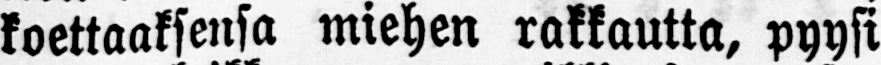koettaaksensa miehen rakkautta, pyysi
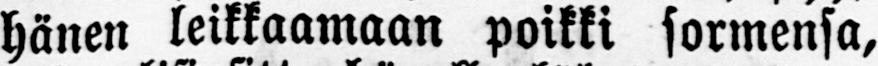hänen leikkaamaan poikki sormensa,
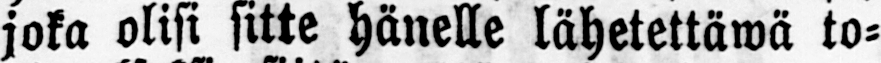joka olisi sitte hänelle lähetettäwä to-
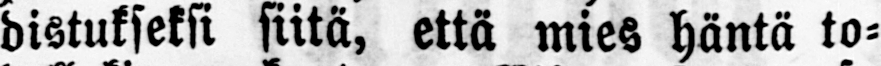distukseksi siitä, että mies häntä to-
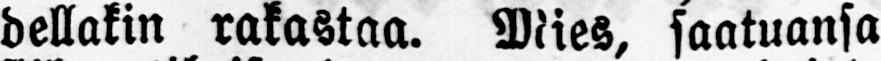dellakin rakastaa. Mies, saatuansa
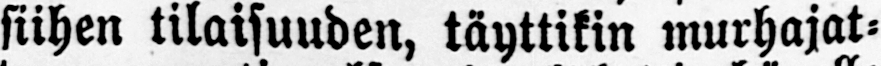siihen tilaisuuden, täyttikin murhajat-
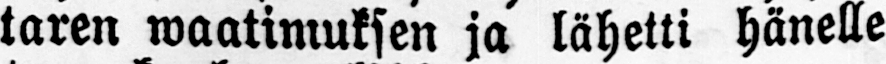taren waatimuksen ja lähetti hänelle
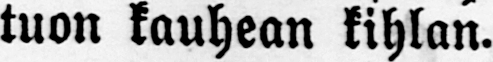tuon kauhean kihlan.
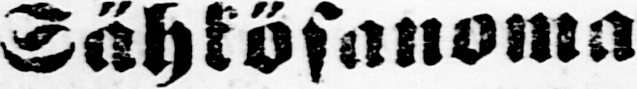Sähkösanoma
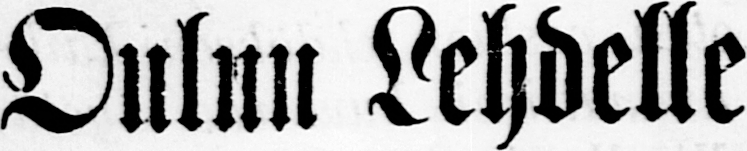Oulun Lehdelle
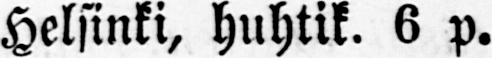Helsinki, huhtik. 6 p.
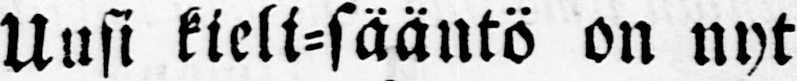Uusi kieli-sääntö on nyt
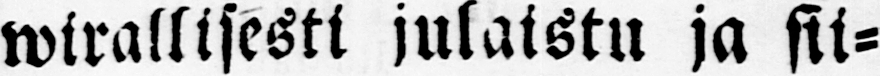wirallisesti julaistu ja sii-
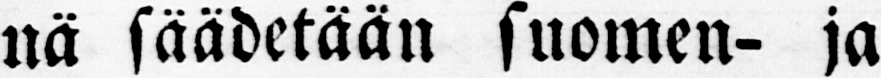nä säädetään suomen- ja
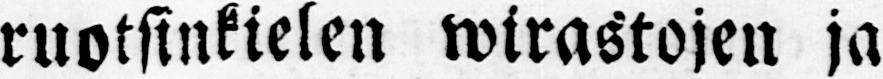ruotsinkielen ja
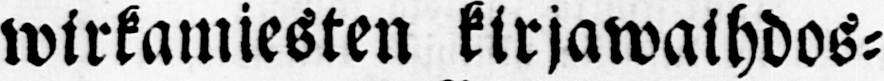wirkamiesten kirjawaihdos-
